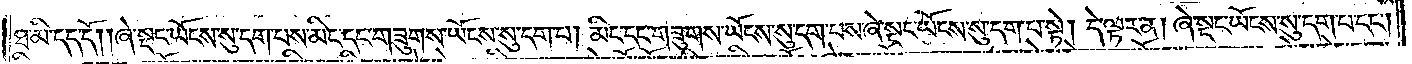ཐ་མི་དད་དོ། །ཞེ་སྡང་ཡོངས་སུ་དག་པས་མིང་དང་གཟུགས་ཡོངས་སུ་དག་པ། མིང་དང་གཟུགས་ཡོངས་སུ་དག་པས་ཞེ་སྡང་ཡོངས་སུ་དག་པ་སྟེ། དེ་ལྟར་ན། ཞེ་སྡང་ཡོངས་སུ་དག་པ་དང༌།
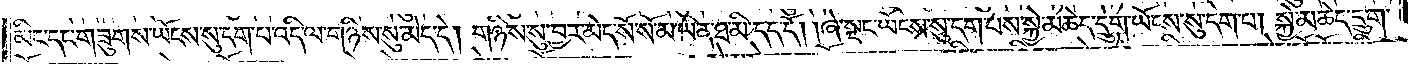མིང་དང་གཟུགས་ཡོངས་སུ་དག་པ་འདི་ལ་གཉིས་སུ་མེད་དེ། གཉིས་སུ་བྱར་མེད་སོ་སོ་མ་ཡིན་ཐ་མི་དད་དོ། །ཞེ་སྡང་ཡོངས་སུ་དག་པས་སྐྱེ་མཆེད་དྲུག་ཡོངས་སུ་དག་པ། སྐྱེ་མཆེད་དྲུག་
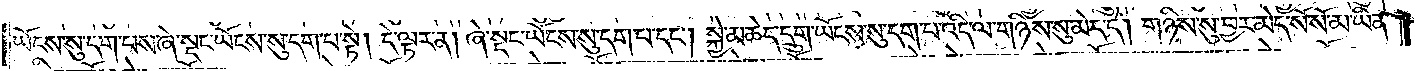ཡོངས་སུ་དག་པས་ཞེ་སྡང་ཡོངས་སུ་དག་པ་སྟེ། དེ་ལྟར་ན། ཞེ་སྡང་ཡོངས་སུ་དག་པ་དང༌། སྐྱེ་མཆེད་དྲུག་ཡོངས་སུ་དག་པ་འདི་ལ་གཉིས་སུ་མེད་དེ། གཉིས་སུ་བྱར་མེད་སོ་སོ་མ་ཡིན་
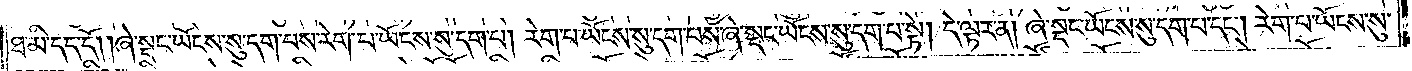ཐ་མི་དད་དོ། །ཞེ་སྡང་ཡོངས་སུ་དག་པས་རེག་པ་ཡོངས་སུ་དག་པ། རེག་པ་ཡོངས་སུ་དག་པས་ཞེ་སྡང་ཡོངས་སུ་དག་པ་སྟེ། དེ་ལྟར་ན། ཞེ་སྡང་ཡོངས་སུ་དག་པ་དང༌། རེག་པ་ཡོངས་སུ་
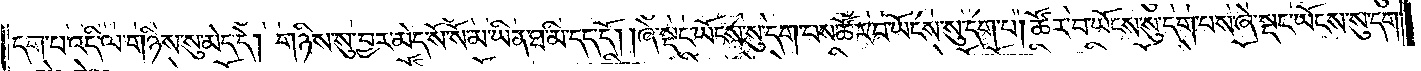དག་པ་འདི་ལ་གཉིས་སུ་མེད་དེ། གཉིས་སུ་བྱར་མེད་སོ་སོ་མ་ཡིན་ཐ་མི་དད་དོ། །ཞེ་སྡང་ཡོངས་སུ་དག་པས་ཚོར་བ་ཡོངས་སུ་དག་པ། ཚོར་བ་ཡོངས་སུ་དག་པས་ཞེ་སྡང་ཡོངས་སུ་དག་
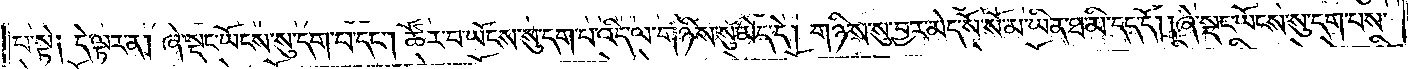པ་སྟེ༑ དེ་ལྟར་ན། ཞེ་སྡང་ཡོངས་སུ་དག་པ་དང༌། ཚོར་བ་ཡོངས་སུ་དག་པ་འདི་ལ་གཉིས་སུ་མེད་དེ། གཉིས་སུ་བྱར་མེད་སོ་སོ་མ་ཡིན་ཐ་མི་དད་དོ། །ཞེ་སྡང་ཡོངས་སུ་དག་པས་
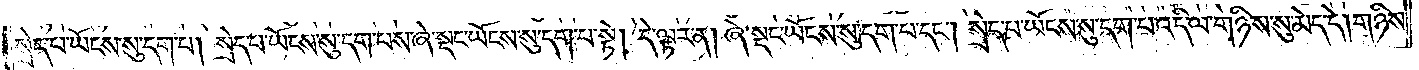སྲེད་པ་ཡོངས་སུ་དག་པ། སྲེད་པ་ཡོངས་སུ་དག་པས་ཞེ་སྡང་ཡོངས་སུ་དག་པ་སྟེ། དེ་ལྟར་ན། ཞེ་སྡང་ཡོངས་སུ་དག་པ་དང༌། སྲེད་པ་ཡོངས་སུ་དག་པ་འདི་ལ་གཉིས་སུ་མེད་དེ། གཉིས་
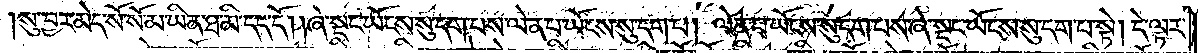སུ་བྱར་མེད་སོ་སོ་མ་ཡིན་ཐ་མི་དད་དོ། །ཞེ་སྡང་ཡོངས་སུ་དག་པས་ལེན་པ་ཡོངས་སུ་དག་པ། ལེན་པ་ཡོངས་སུ་དག་པས་ཞེ་སྡང་ཡོངས་སུ་དག་པ་སྟེ། དེ་ལྟར་
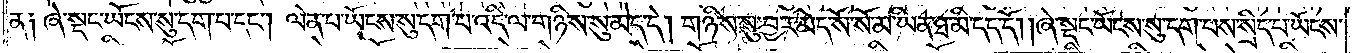ན༑ ཞེ་སྡང་ཡོངས་སུ་དག་པ་དང༌། ལེན་པ་ཡོངས་སུ་དག་པ་འདི་ལ་གཉིས་སུ་མེད་དེ། གཉིས་སུ་བྱར་མེད་སོ་སོ་མ་ཡིན་ཐ་མི་དད་དོ། །ཞེ་སྡང་ཡོངས་སུ་དག་པས་སྲིད་པ་ཡོངས་
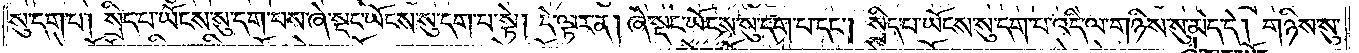སུ་དག་པ། སྲིད་པ་ཡོངས་སུ་དག་པས་ཞེ་སྡང་ཡོངས་སུ་དག་པ་སྟེ། དེ་ལྟར་ན། ཞེ་སྡང་ཡོངས་སུ་དག་པ་དང༌། སྲིད་པ་ཡོངས་སུ་དག་པ་འདི་ལ་གཉིས་སུ་མེད་དེ། གཉིས་སུ་
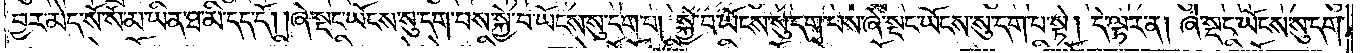བྱར་མེད་སོ་སོ་མ་ཡིན་ཐ་མི་དད་དོ། །ཞེ་སྡང་ཡོངས་སུ་དག་པས་སྐྱེ་བ་ཡོངས་སུ་དག་པ། སྐྱེ་བ་ཡོངས་སུ་དག་པས་ཞེ་སྡང་ཡོངས་སུ་དག་པ་སྟེ། དེ་ལྟར་ན། ཞེ་སྡང་ཡོངས་སུ་དག་
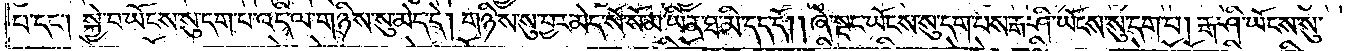པ་དང༌། སྐྱེ་བ་ཡོངས་སུ་དག་པ་འདི་ལ་གཉིས་སུ་མེད་དེ། གཉིས་སུ་བྱར་མེད་སོ་སོ་མ་ཡིན་ཐ་མི་དད་དོ། །ཞེ་སྡང་ཡོངས་སུ་དག་པས་རྒ་ཤི་ཡོངས་སུ་དག་པ། རྒ་ཤི་ཡོངས་སུ་
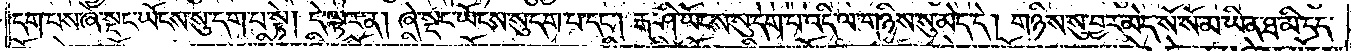དག་པས་ཞེ་སྡང་ཡོངས་སུ་དག་པ་སྟེ། དེ་ལྟར་ན། ཞེ་སྡང་ཡོངས་སུ་དག་པ་དང༌། རྒ་ཤི་ཡོངས་སུ་དག་པ་འདི་ལ་གཉིས་སུ་མེད་དེ། གཉིས་སུ་བྱར་མེད་སོ་སོ་མ་ཡིན་ཐ་མི་དད་
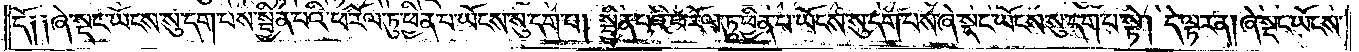དོ༑ ༑ཞེ་སྡང་ཡོངས་སུ་དག་པས་སྦྱིན་པའི་ཕ་རོལ་ཏུ་ཕྱིན་པ་ཡོངས་སུ་དག་པ། སྦྱིན་པའི་ཕ་རོལ་ཏུ་ཕྱིན་པ་ཡོངས་སུ་དག་པས་ཞེ་སྡང་ཡོངས་སུ་དག་པ་སྟེ། དེ་ལྟར་ན། ཞེ་སྡང་ཡོངས་
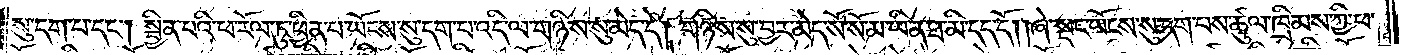སུ་དག་པ་དང༌། སྦྱིན་པའི་ཕ་རོལ་ཏུ་ཕྱིན་པ་ཡོངས་སུ་དག་པ་འདི་ལ་གཉིས་སུ་མེད་དེ། གཉིས་སུ་བྱར་མེད་སོ་སོ་མ་ཡིན་ཐ་མི་དད་དོ། །ཞེ་སྡང་ཡོངས་སུ་དག་པས་ཚུལ་ཁྲིམས་ཀྱི་ཕ་
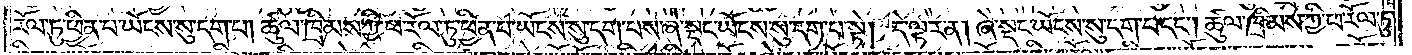རོལ་ཏུ་ཕྱིན་པ་ཡོངས་སུ་དག་པ། ཚུལ་ཁྲིམས་ཀྱི་ཕ་རོལ་ཏུ་ཕྱིན་པ་ཡོངས་སུ་དག་པས་ཞེ་སྡང་ཡོངས་སུ་དག་པ་སྟེ། དེ་ལྟར་ན། ཞེ་སྡང་ཡོངས་སུ་དག་པ་དང༌། ཚུལ་ཁྲིམས་ཀྱི་ཕ་རོལ་ཏུ་
